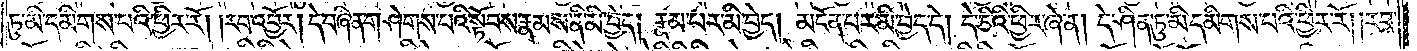ཏུ་མི་དམིགས་པའི་ཕྱིར་རོ། །རབ་འབྱོར། དེ་བཞིན་གཤེགས་པའི་སྟོབས་རྣམས་ནི་མི་བྱེད། རྣམ་པར་མི་བྱེད། མངོན་པར་མི་བྱེད་དེ། དེ་ཅིའི་ཕྱིར་ཞེ་ན། དེ་ཤིན་ཏུ་མི་དམིགས་པའི་ཕྱིར་རོ། །རབ་
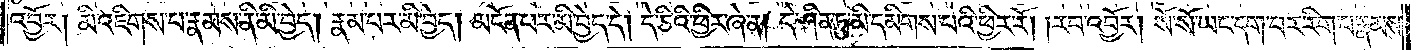འབྱོར། མི་འཇིགས་པ་རྣམས་ནི་མི་བྱེད། རྣམ་པར་མི་བྱེད། མངོན་པར་མི་བྱེད་དེ། དེ་ཅིའི་ཕྱིར་ཞེ་ན། དེ་ཤིན་ཏུ་མི་དམིགས་པའི་ཕྱིར་རོ། །རབ་འབྱོར། སོ་སོ་ཡང་དག་པར་རིག་པ་རྣམས་
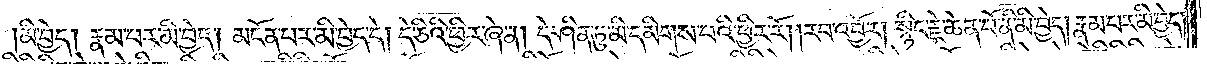མི་བྱེད། རྣམ་པར་མི་བྱེད་མངོན་པར་མི་བྱེད་དེ། དེ་ཅིའི་ཕྱིར་ཞེ་ན། དེ་ཤིན་ཏུ་མི་དམིགས་པའི་ཕྱིར་རོ། །རབ་འབྱོར། སྙིང་རྗེ་ཆེན་པོ་ནི་མི་བྱེད། རྣམ་པར་མི་བྱེད།
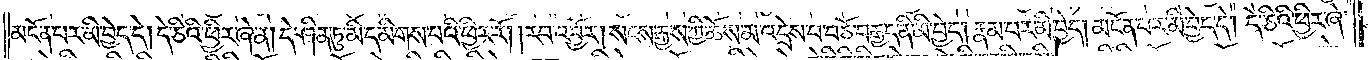མངོན་པར་མི་བྱེད་དེ། དེ་ཅིའི་ཕྱིར་ཞེ་ན། དེ་ཤིན་ཏུ་མི་དམིགས་པའི་ཕྱིར་རོ། །རབ་འབྱོར། སངས་རྒྱས་ཀྱི་ཆོས་མ་འདྲེས་པ་བཅོ་བརྒྱད་ནི་མི་བྱེད། རྣམ་པར་མི་བྱེད། མངོན་པར་མི་བྱེད་དེ། དེ་ཅིའི་ཕྱིར་ཞེ་
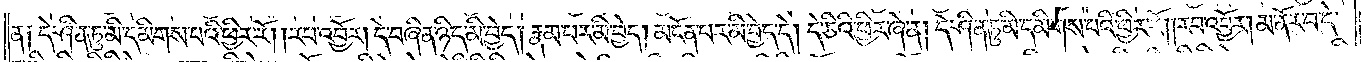ན། དེ་ཤིན་ཏུ་མི་དམིགས་པའི་ཕྱིར་རོ། །རབ་འབྱོར། དེ་བཞིན་ཉིད་ནི་མི་བྱེད། རྣམ་པར་མི་བྱེད། མངོན་པར་མི་བྱེད་དེ། དེ་ཅིའི་ཕྱིར་ཞེ་ན། དེ་ཤིན་ཏུ་མི་དམིགས་པའི་ཕྱིར་རོ། །རབ་འབྱོར། མ་ནོར་བ་དེ་
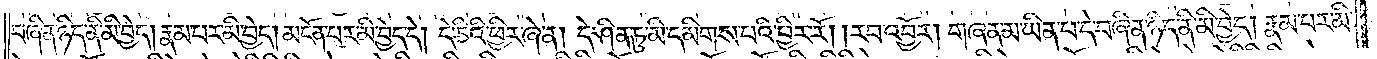བཞིན་ཉིད་ནི་མི་བྱེད། རྣམ་པར་མི་བྱེད། མངོན་པར་མི་བྱེད་དེ། དེ་ཅིའི་ཕྱིར་ཞེ་ན། དེ་ཤིན་ཏུ་མི་དམིགས་པའི་ཕྱིར་རོ། །རབ་འབྱོར། གཞན་མ་ཡིན་པ་དེ་བཞིན་ཉིད་ནི་མི་བྱེད། རྣམ་པར་མི་
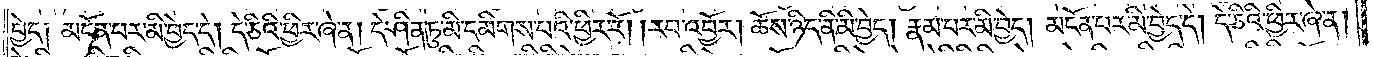བྱེད། མངོན་པར་མི་བྱེད་དེ། དེ་ཅིའི་ཕྱིར་ཞེ་ན། དེ་ཤིན་ཏུ་མི་དམིགས་པའི་ཕྱིར་རོ། །རབ་འབྱོར། ཆོས་ཉིད་ནི་མི་བྱེད། རྣམ་པར་མི་བྱེད། མངོན་པར་མི་བྱེད་དེ། དེ་ཅིའི་ཕྱིར་ཞེ་ན།
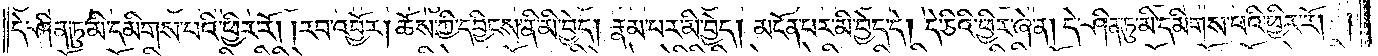དེ་ཤིན་ཏུ་མི་དམིགས་པའི་ཕྱིར་རོ། །རབ་འབྱོར། ཆོས་ཀྱི་དབྱིངས་ནི་མི་བྱེད། རྣམ་པར་མི་བྱེད། མངོན་པར་མི་བྱེད་དེ། དེ་ཅིའི་ཕྱིར་ཞེ་ན། དེ་ཤིན་ཏུ་མི་དམིགས་པའི་ཕྱིར་རོ། །
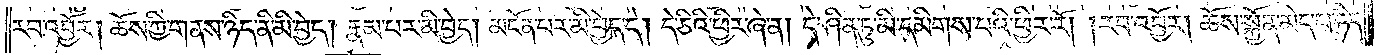རབ་འབྱོར། ཆོས་ཀྱི་གནས་ཉིད་ནི་མི་བྱེད། རྣམ་པར་མི་བྱེད། མངོན་པར་མི་བྱེད་དེ། དེ་ཅིའི་ཕྱིར་ཞེ་ན། དེ་ཤིན་ཏུ་མི་དམིགས་པའི་ཕྱིར་རོ། །རབ་འབྱོར། ཆོས་སྐྱོན་མེད་པ་ཉིད་
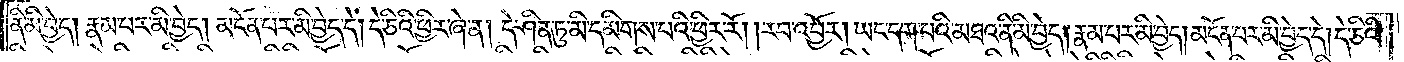ནི་མི་བྱེད། རྣམ་པར་མི་བྱེད། མངོན་པར་མི་བྱེད་དེ། དེ་ཅིའི་ཕྱིར་ཞེ་ན། དེ་ཤིན་ཏུ་མི་དམིགས་པའི་ཕྱིར་རོ། །རབ་འབྱོར། ཡང་དག་པའི་མཐའ་ནི་མི་བྱེད། རྣམ་པར་མི་བྱེད། མངོན་པར་མི་བྱེད་དེ། དེ་ཅིའི་
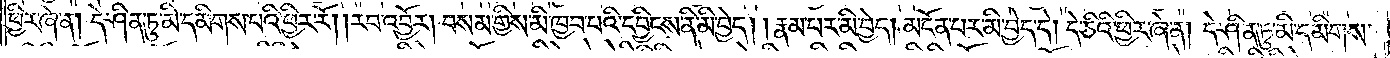ཕྱིར་ཞེ་ན། དེ་ཤིན་ཏུ་མི་དམིགས་པའི་ཕྱིར་རོ། །རབ་འབྱོར། བསམ་གྱིས་མི་ཁྱབ་པའི་དབྱིངས་ནི་མི་བྱེད། རྣམ་པར་མི་བྱེད། མངོན་པར་མི་བྱེད་དེ། དེ་ཅིའི་ཕྱིར་ཞེ་ན། དེ་ཤིན་ཏུ་མི་དམིགས་
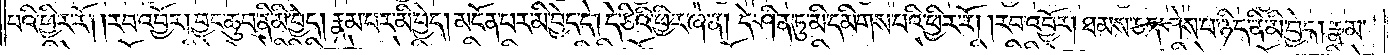པའི་ཕྱིར་རོ། །རབ་འབྱོར། བྱང་ཆུབ་ནི་མི་བྱེད། རྣམ་པར་མི་བྱེད། མངོན་པར་མི་བྱེད་དེ། དེ་ཅིའི་ཕྱིར་ཞེ་ན། དེ་ཤིན་ཏུ་མི་དམིགས་པའི་ཕྱིར་རོ། །རབ་འབྱོར། ཐམས་ཅད་ཤེས་པ་ཉིད་ནི་མི་བྱེད། རྣམ་
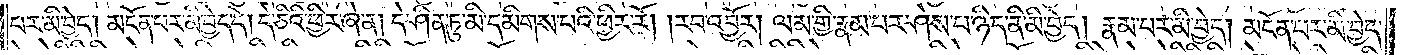པར་མི་བྱེད། མངོན་པར་མི་བྱེད་དེ། དེ་ཅིའི་ཕྱིར་ཞེ་ན། དེ་ཤིན་ཏུ་མི་དམིགས་པའི་ཕྱིར་རོ། །རབ་འབྱོར། ལམ་གྱི་རྣམ་པར་ཤེས་པ་ཉིད་ནི་མི་བྱེད། རྣམ་པར་མི་བྱེད། མངོན་པར་མི་བྱེད་
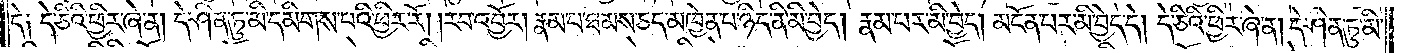དེ། དེ་ཅིའི་ཕྱིར་ཞེ་ན། དེ་ཤིན་ཏུ་མི་དམིགས་པའི་ཕྱིར་རོ། །རབ་འབྱོར། རྣམ་པ་ཐམས་ཅད་མཁྱེན་པ་ཉིད་ནི་མི་བྱེད། རྣམ་པར་མི་བྱེད། མངོན་པར་མི་བྱེད་དེ། དེ་ཅིའི་ཕྱིར་ཞེ་ན། དེ་ཤིན་ཏུ་མི་
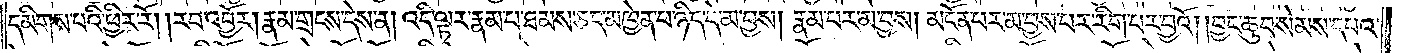དམིགས་པའི་ཕྱིར་རོ། །རབ་འབྱོར། རྣམ་གྲངས་དེས་ན། འདི་ལྟར་རྣམ་པ་ཐམས་ཅད་མཁྱེན་པ་ཉིད་དེ་མ་བྱས། རྣམ་པར་མ་བྱས། མངོན་པར་མ་བྱས་པར་རིག་པར་བྱའོ། །བྱང་ཆུབ་སེམས་དཔའ་
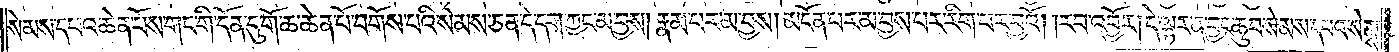སེམས་དཔའ་ཆེན་པོས་གང་གི་དོན་དུ་གོ་ཆ་ཆེན་པོ་བགོས་པའི་སེམས་ཅན་དེ་དག་ཀྱང་མ་བྱས། རྣམ་པར་མ་བྱས། མངོན་པར་མ་བྱས་པར་རིག་པར་བྱའོ། །རབ་འབྱོར། དེ་ལྟར་ན་བྱང་ཆུབ་སེམས་དཔའ་སེམས་
